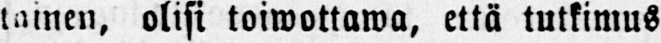tainen, olisi toiwottawa, että tutkimus
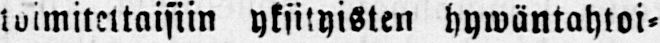toimiteltaisiin yksityisten hywäntahtoi-
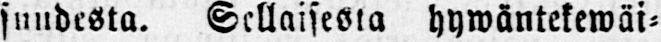suudesta. Sellaisesta hywäntekewäi-
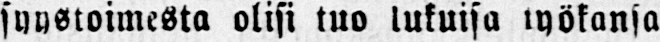syystoimesta olisi tuo lukuisa työkansa
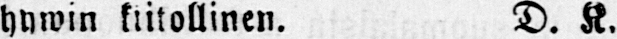hywin kiitollinen. D. K.
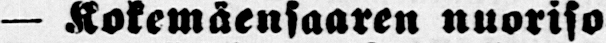— Kokemäensaaren nuoriso-
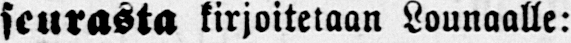seurasta kirjoitetaan Lounaalle:
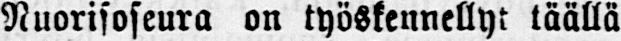Nuorisoseura on työskennellyt täällä
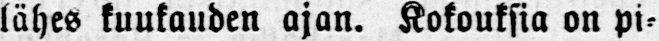lähes kuukauden ajan. Kokouksia on pi-
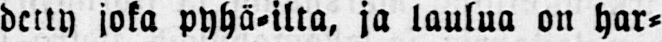detty joka pyhä-ilta, ja laulua on har-
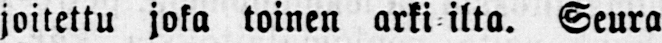joitettu joka toinen arki-ilta. Seura
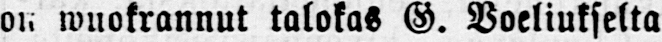on wuokrannut talokas G. Voeliukselta
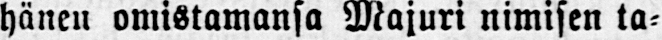hänen omistamansa Majuri nimisen ta-
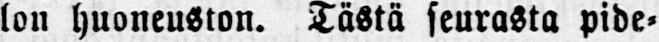lon huoneuston. Tästä seurasta pide-
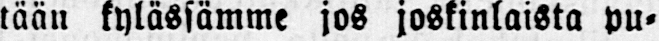tään kylässämme jos joskinlaista pu-
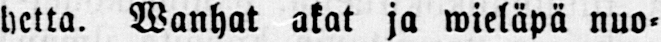hetta. Wanhat akat ja wieläpä nuo-
